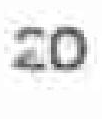20
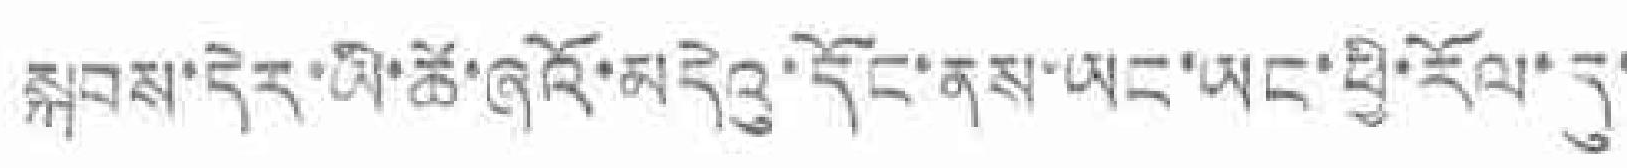སྐབས་དེར་ཡི་ཚོ་ཞའོ་མདེའུ་དོང་ནས་ཡང་ཡང་ཕྱི་རོལ་དུ་
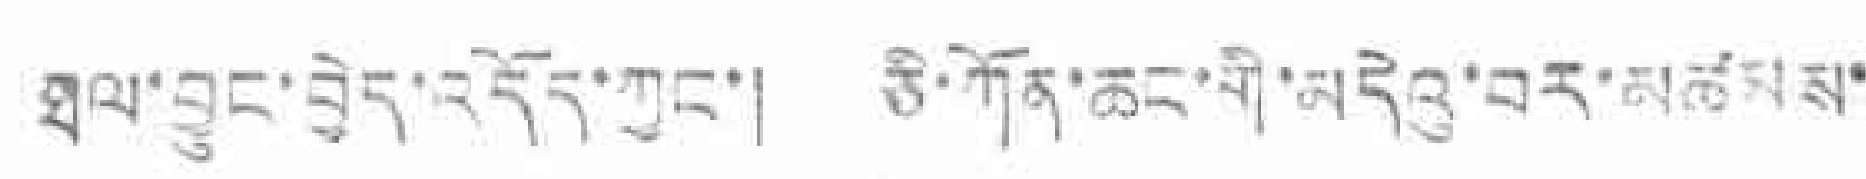ཐལ་བྱུང་བྱེད་འདོད་ཀྱང་། ཅི་ཀོན་ཆང་གི་མདེའུ་བར་མཚམས་
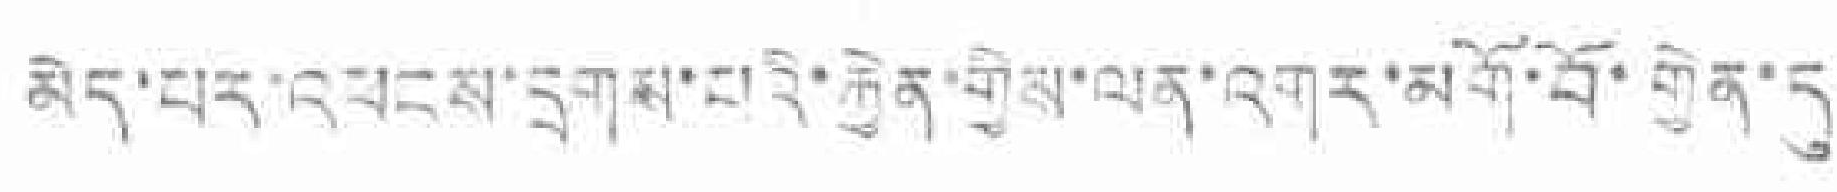མེད་པར་འཕངས་དྲགས་པའི་རྐྱེན་གྱིས་ལན་འགར་མགོ་བོ་གྱེན་དུ་
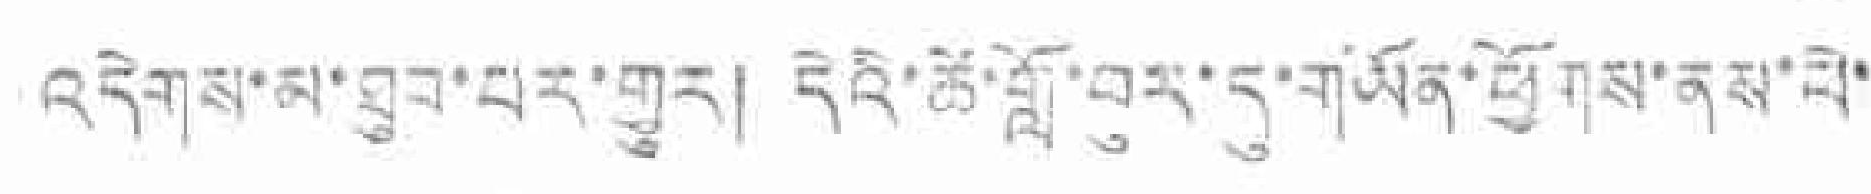འདེགས་པ་ཐུབ་པར་གྱུར། དའི་ཚེ་གློ་བུར་དུ་གཡོན་ཕྱོགས་ནས་ཕེ་
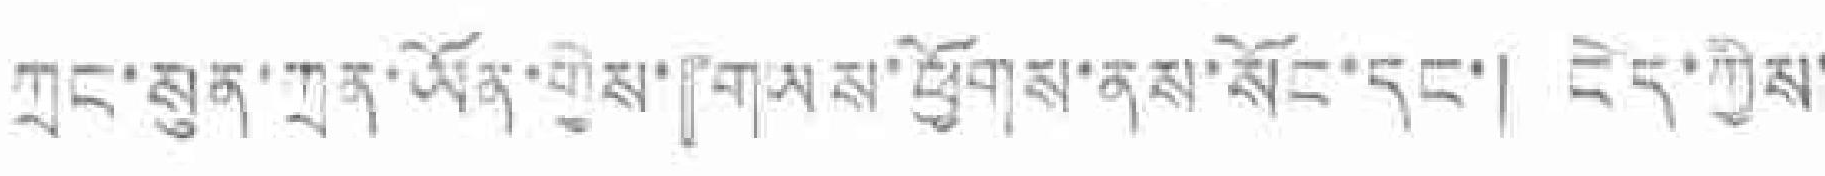ཀྲང་སུན་ཀྲན་ཡོན་གྱིས་『གཡས་ཕྱོགས་ནས་སོང་དང་། ངེད་ཀྱིས་
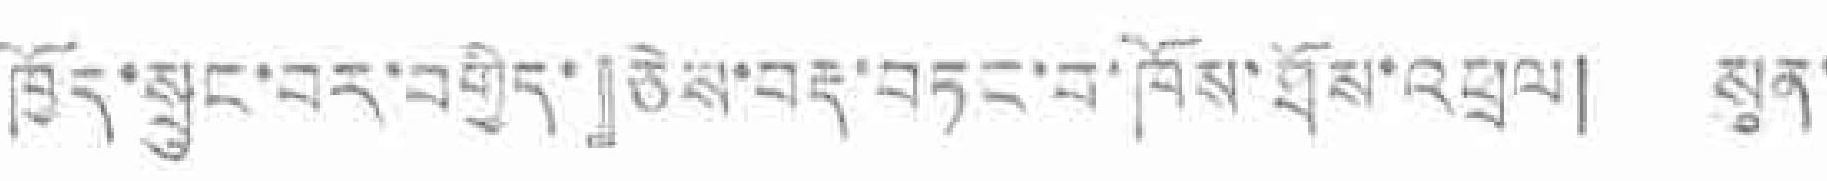ཁྱོད་སྲུང་བར་བགྱིད་』ཅེས་བརྡ་བཏང་བ་ཁོས་ཐོས་འཕྲལ། སུན་
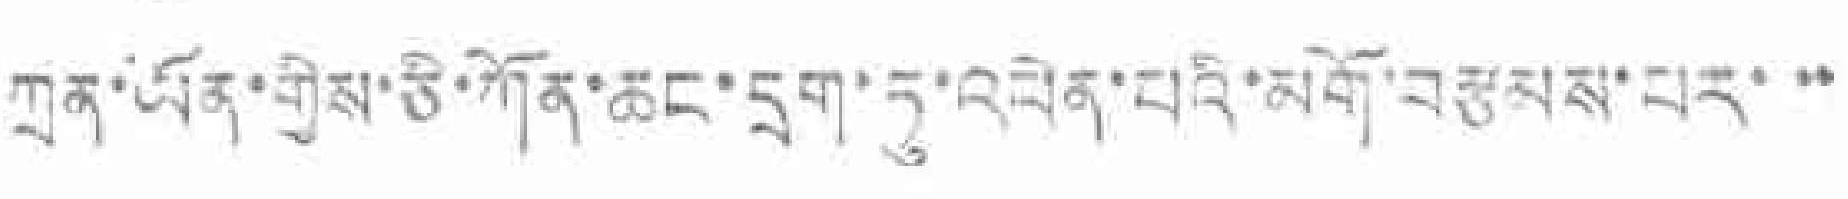ཀྲན་ཡོན་གྱིས་ཅི་ཀོན་ཆང་དྲག་རུ་འཕེན་པའི་མགོ་བརྩམས་པར་་་
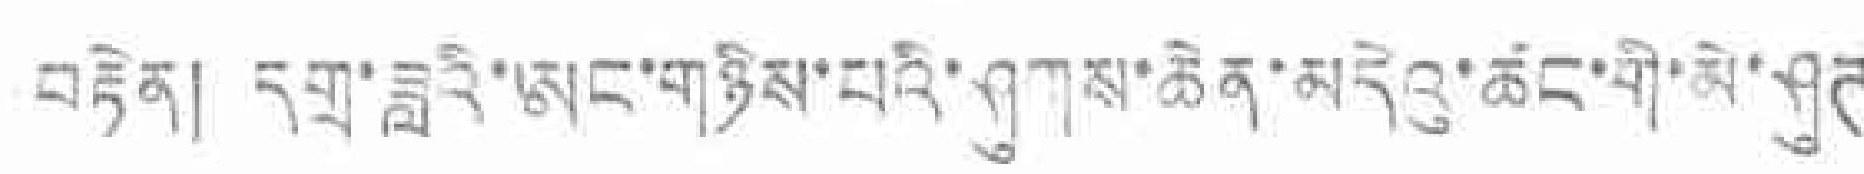བརྟེན། དགྲ་ཟླའི་ཨང་གཉིས་པའི་ཤུགས་ཆེན་མདེའུ་ཚང་གི་མེ་ཤུཊ
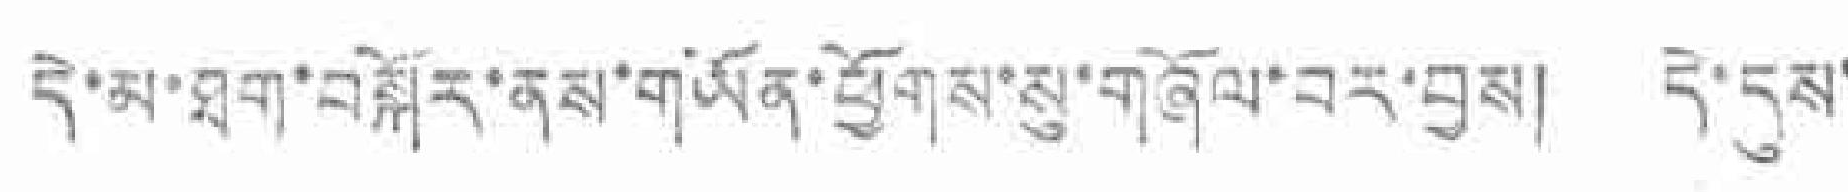དེ་མ་ཐག་བསྐོར་ནས་གཡོན་ཕྱོགས་སུ་གཞོལ་བར་བྱས། དེ་དུས་
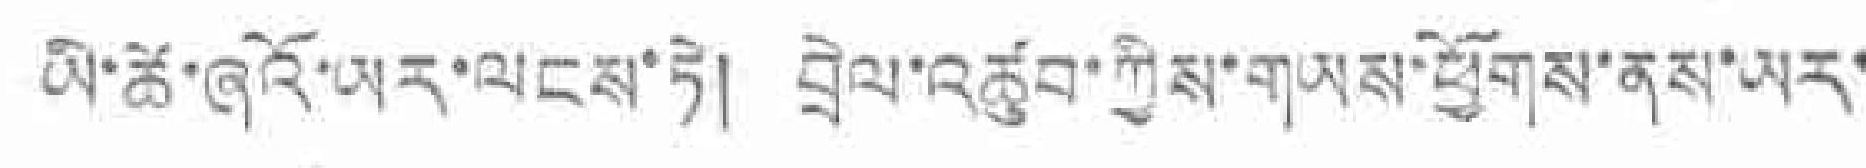ཡི་ཚེ་ཞའོ་ཡར་ལངས་ཏེ། བྲེལ་འཚུབ་ཀྱིས་གཡས་ཕྱོགས་ནས་ཡར་
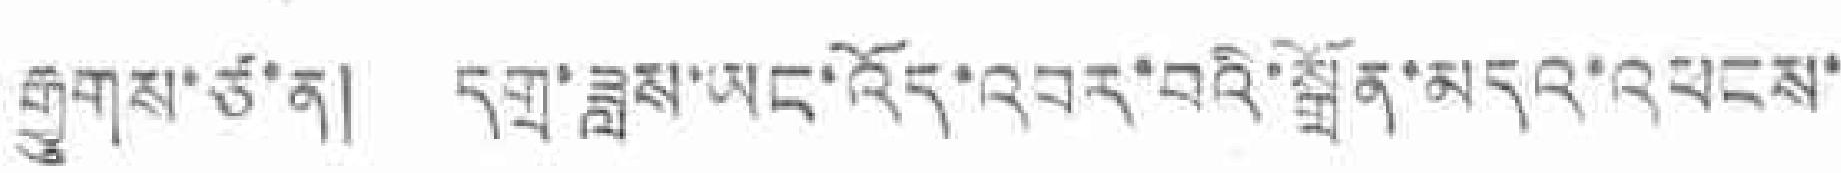རྒྱུགས་ཙ་ན། དགྲ་ཟླས་ཡང་འོད་འབད་བའི་སྒྲོན་མདའ་འཕངས་
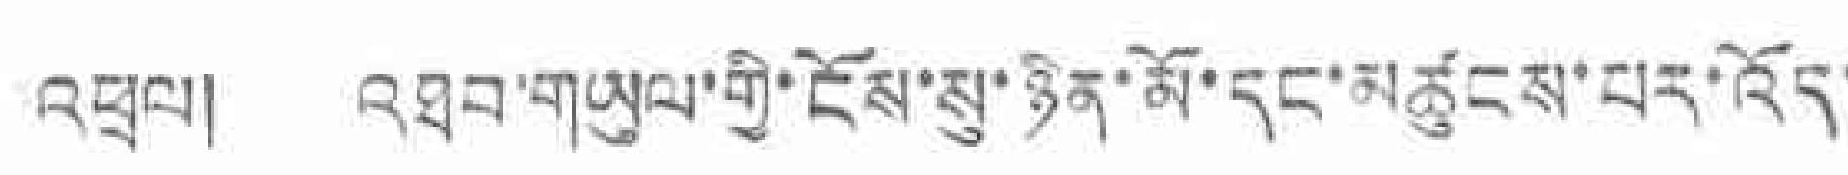འཕྲལ། འཐབ་གཡུལ་གྱི་ངོས་སུ་ཉིན་མོ་དང་མཚུངས་པར་འོད་
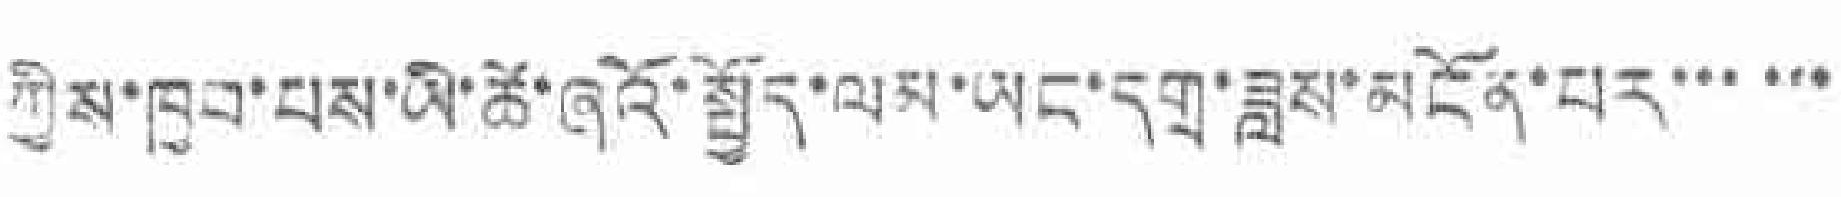ཀྱིས་ཁྱབ་པས་ཡི་ཚེ་ཞའོ་སྤྱོད་ལམ་ཡང་དགྲ་ཟླས་མངོན་པར་་་་་་
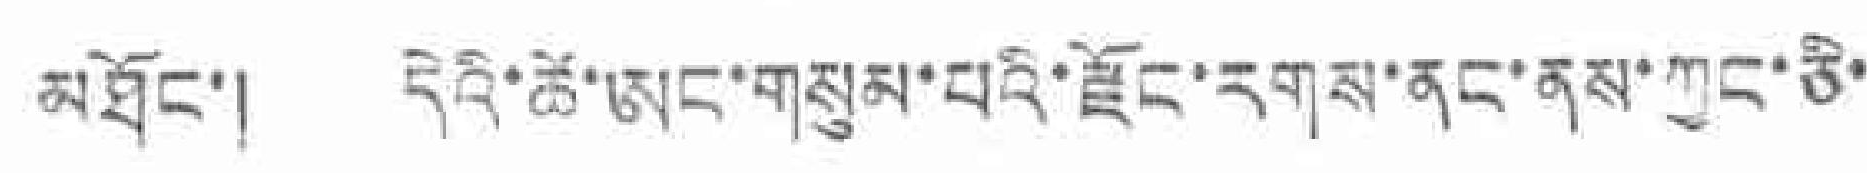མཐོང་། དེའི་ཚེ་ཨང་གསུམ་པའི་རྫོང་རགས་ནང་ནས་ཀྱང་ཅི་
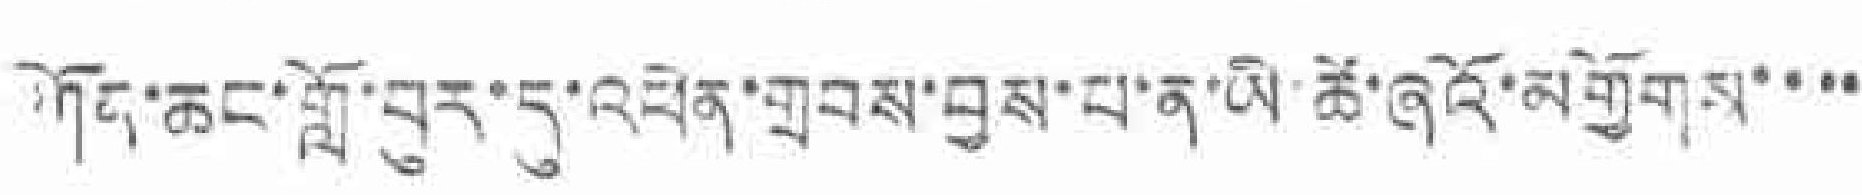ཀོན་ཆང་གློ་བུར་དུ་འཕེན་གྲབས་བྱས་པ་ན་ཡི་ཚེ་ཞའོ་མགྱོགས་་་་
